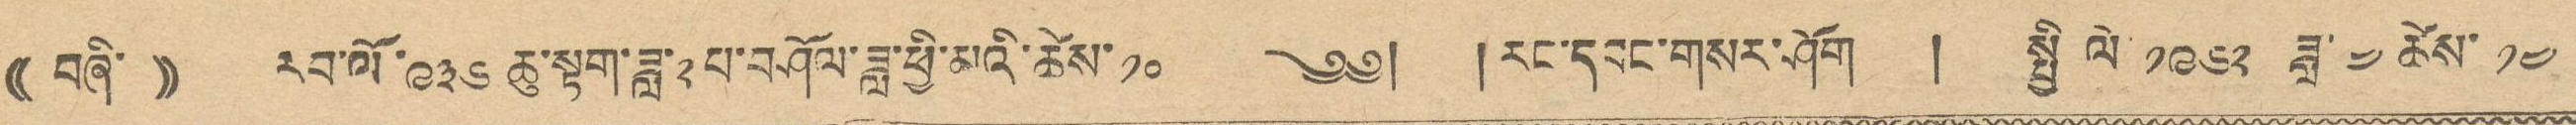(( བཞི་ )) རབ་ལོ་ ༩༣༦ ཆུ་སྟག་ཟླ་༢པ་བཤོལ་ཟླ་ཕྱི་མའི་ཚེས་ ༡༠ ༄༅། །རང་དབང་གསར་ཤོག ། སྤྱི ལོ ༡༩༦༢ ཟླ་ ༤ ཚེས་ ༡༤
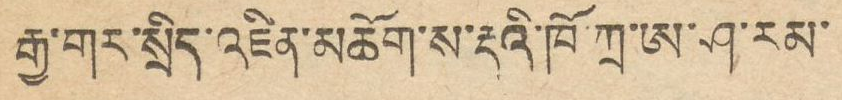རྒྱ་གར་སྲིད་འཛིན་མཆོག་ས་རྡའི་ཁོ་ཀྲ་ཨ་ཤ་རམ་
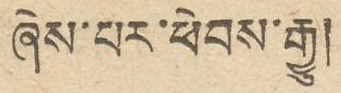ཞེས་པར་ཕེབས་རྒྱུ།
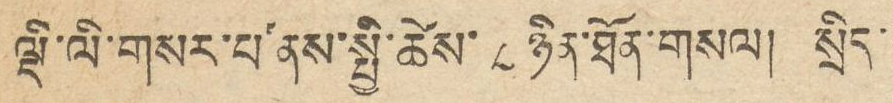ལྡི་ལི་གསར་པ་ནས་སྤྱི་ཚེས་ ༨ ཉིན་ཐོན་གསལ། སྲིད་
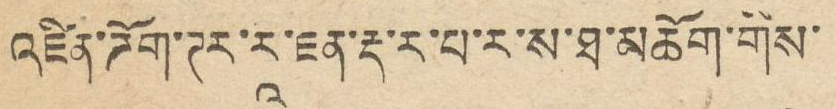འཛིན་ཌོག་ཊར་ར་ཇན་རྡ་ར་པ་ར་ས་ཐ་མཆོག་གིས་
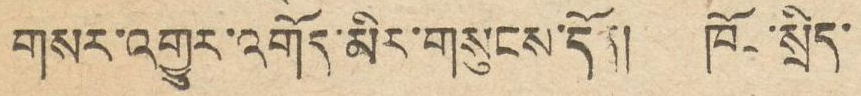གསར་འགྱུར་འགོད་མིར་གསུངས་དོན། ཁོང་སྲིད་
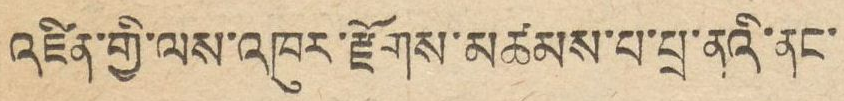འཛིན་གྱི་ལས་འཁུར་རྫོགས་མཚམས་པ་པྲ་ནའི་ནང་
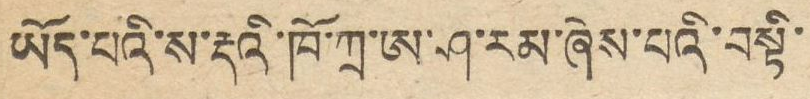ཡོད་པའི་ས་རྡའི་ཁོ་ཀྲ་ཨ་ཤ་རམ་ཞེས་པའི་བསྟི་
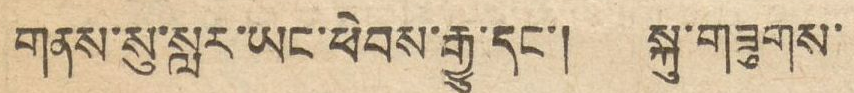གནས་སུ་སླར་ཡང་ཕེབས་རྒྱུ་དང་། སྐུ་གཟུགས་
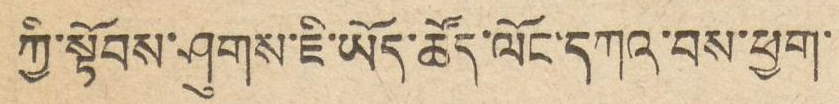ཀྱི་སྟོབས་ཤུགས་ཇི་ཡོད་ཚོད་ལོང་དཀའ་བས་ཕྱག་
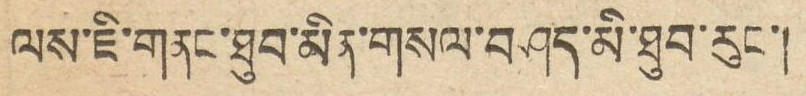ལས་ཇི་གནང་ཐུབ་མིན་གསལ་བཤད་མི་ཐུབ་རུང་།
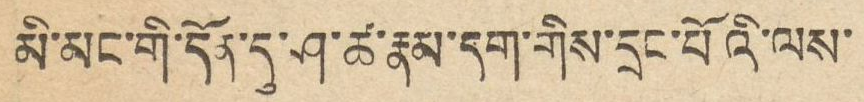མི་མང་གི་དོན་དུ་ཤ་ཚ་རྣམ་དག་གིས་དྲང་པོའི་ལས་
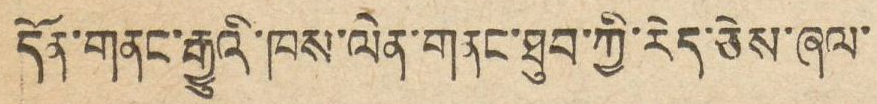དོན་གནང་རྒྱུའི་ཁས་ལེན་གནང་ཐུབ་ཀྱི་རེད་ཅེས་ཞལ་
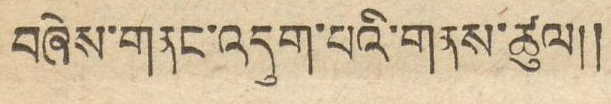བཞེས་གནང་འདུག་པའི་གནས་ཚུལ།།
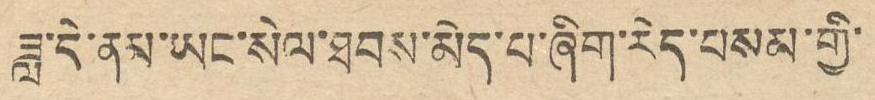ཟླ་དེ་ནམ་ཡང་སེལ་ཐབས་མེད་པ་ཞིག་རེད་བསམ་གྱི་
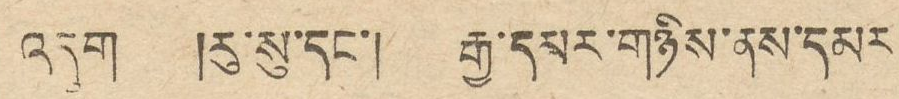འདུག །རུ་སུ་དང་། རྒྱ་དམར་གཉིས་ནས་དམར
